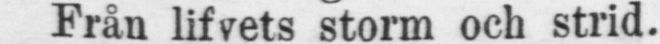Från lifvets storm och strid.
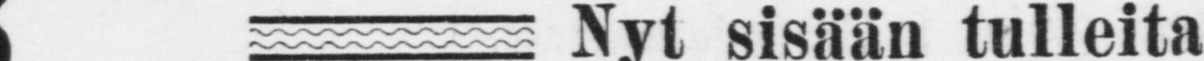Nyt sis ään tulleita
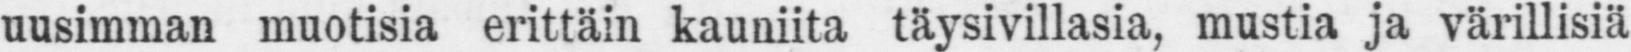uusimman muotisia erittäin kauniita mustia ja värillisiä
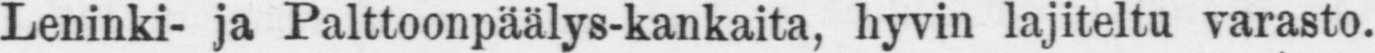Leninki- ja Palttoonpäälys-kankaita, hyvin laiteltu varasto.
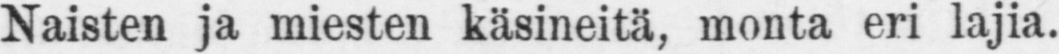Naisten ja miesten käsineitä, monta eri lajia.
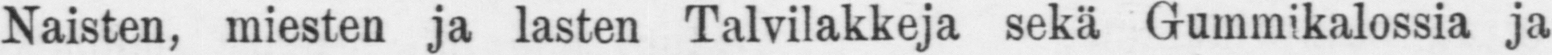Naisten, miesten ja lasten Talvilakkeja sekä Gummikalossia ja
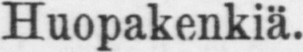Huopakenkiä.
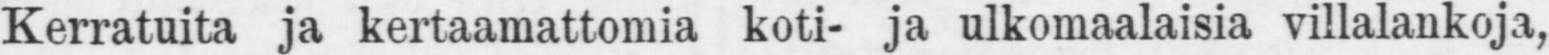Kerratuita ja kertaamattomia koti- ja ulkomaalaisia villalankoja,
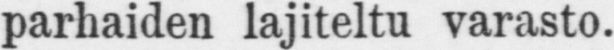parhaiden lajiteltu varasto.
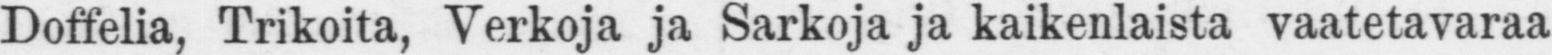Doffelia, Trikoita, Verkoja ja Sarkoja ja kaikenlaista vaatetavaraa
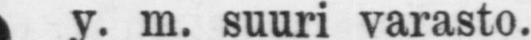y. m. suuri varasto.
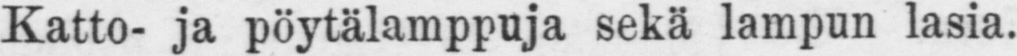Katto- ja pöytälamppuja sekä lampun lasia.
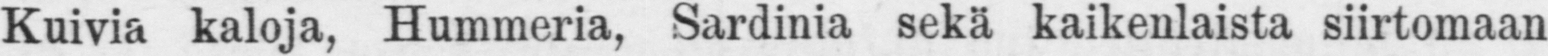Kuivia kaloja, Hummeria, Sardinia sekä kaikenlaista siirtomaan
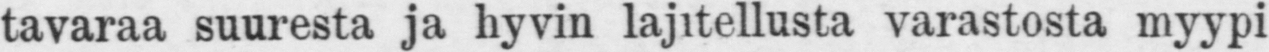tavaraa suuresta ja hyvin lajitellusta varastosta myypi
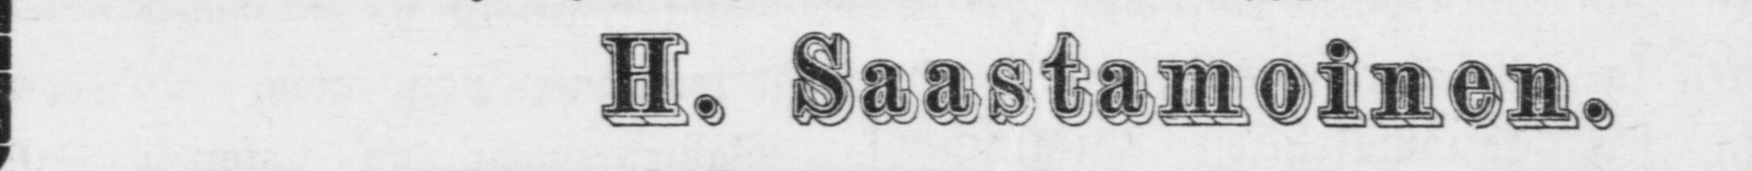H. Saastamoinen.
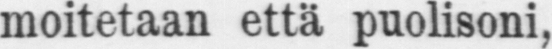moitetaan että puolisoni,
